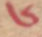༦
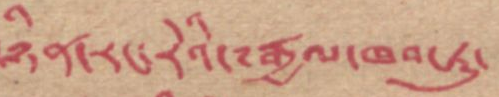ཉིན་རང་རེའི་༸རྒྱལ་ཁབ་རུ་
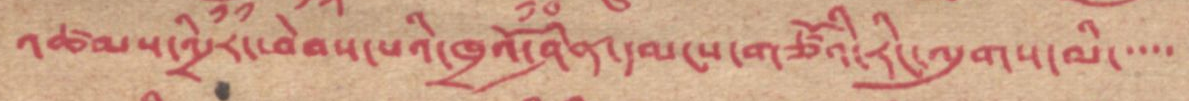འཚམས་འདྲིར་ཕེབས་པའི་ཁྲའོ་ཤིན་དམངས་གཙོའི་རིང་ལུགས་མི་་་་
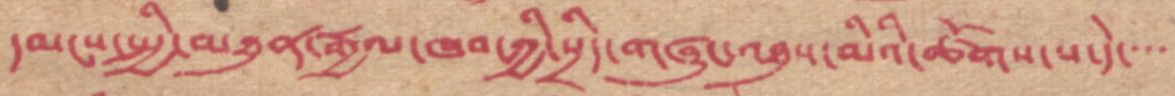དམངས་སྤྱི་མཐུན་རྒྱལ་ཁབ་ཀྱི་སྲིད་གཞུང་འཐུས་མིའི་ཚོགས་པ་དེ་་་་
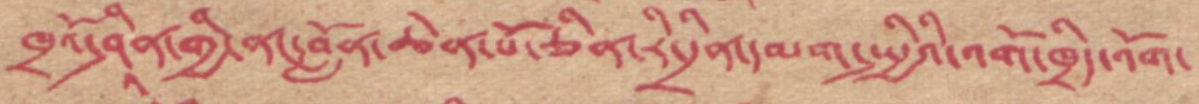ཁྲའོ་ཤཱིན་གྱི་ནང་བློན་ཆེན་པོ་ཅིན་རི་དྲིན་དམག་སྤྱིའི་འགོ་ཁྲིད་འོག་
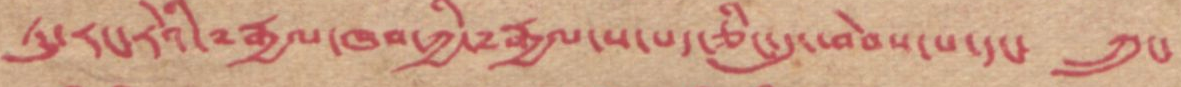ཏུ་རང་རེའི་༸རྒྱལ་ཁབ་ཀྱི་༸རྒྱལ་ས་པད་ཅིང་དུ་ཕེབས་པ་དང་ ཀྲུང་
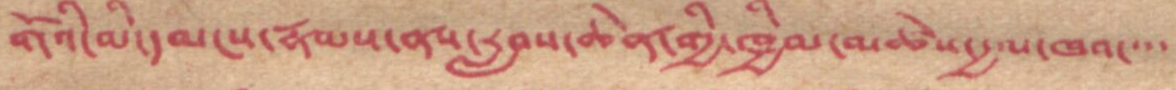གོའི་མི་དམངས་རྣམས་ནས་རླངས་ཆེན་གྱི་ཁྱིམ་མཚེས་རྒྱལ་ཁབ་་་་
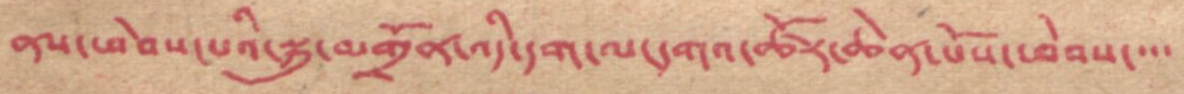ནས་ཕེབས་པའི་སྐུ་མགྲོན་འདི་དག་ལ་དགའ་ཚོར་ཆེན་པོས་ཕེབས་་་
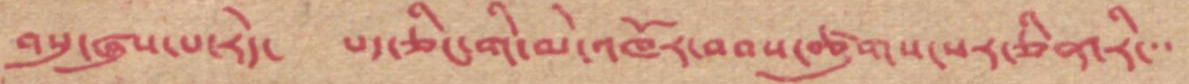བསུ་ཞུས་པ་རེད། པད་ཅིང་གི་མེ་འཁོར་བབས་ཚུགས་སར་ཅིན་རི་་་
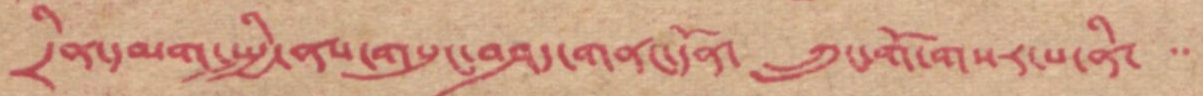དྲིན་དམག་སྤྱི་ནས་གསུང་བཤད་གནང་དོན་ ཀྲུང་གོ་གསར་པ་ནི་་
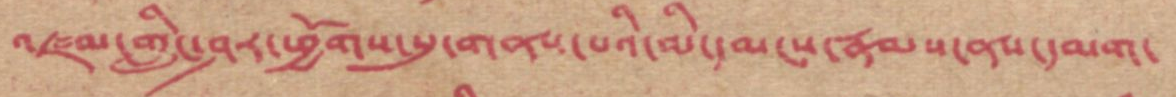འཛམ་གླིང་ཤར་ཕྱོགས་སུ་གནས་པའི་མི་དམངས་རྣམས་ནས་དམག་
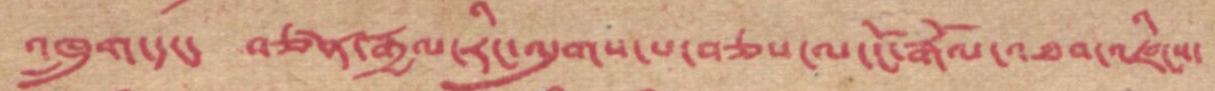འཁྲུག་དང་ བཙན་རྒྱལ་རིང་ལུགས་པ་བཅས་ལ་ངོ་རྒོལ་འཐབ་འཛིངས་
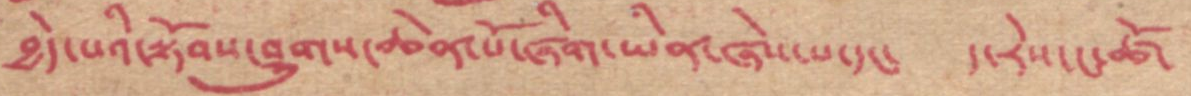བྱེད་པའི་སྟོབས་ཤུགས་ཆེན་པོ་ཞིག་ཡིན་ཞེས་པ་དང་ ད་རེས་ང་ཚོ་
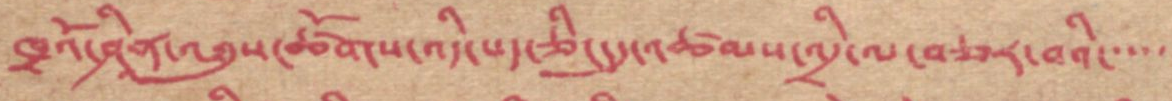ཁྲའོ་ཤིན་འཐུས་ཚོགས་འདི་པད་ཅིང་དུ་འཚམས་འདྲི་ལ་བཅར་བའི་་་་་
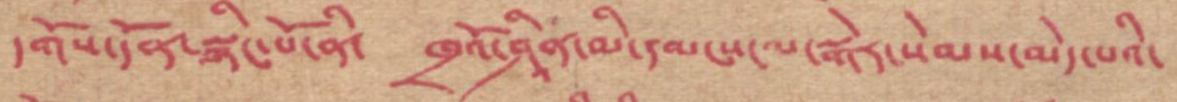དགོས་དོན་སྙིང་པོ་ནི་ ཁྲའོ་ཤཱིན་མི་དམངས་ལ་སྒེར་སེམས་མེད་པའི་
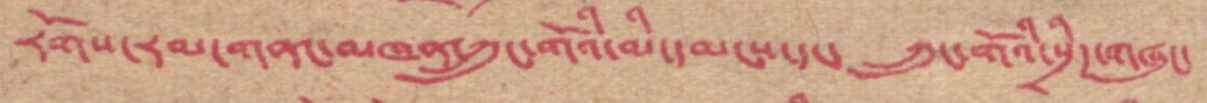རོགས་རམ་གནང་མཁང་ཀྲུང་གོའི་མི་དམངས་དང་ ཀྲུང་གོའི་སྲིད་གཞུང་
